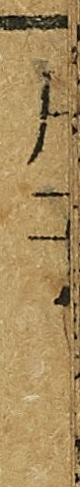尸子
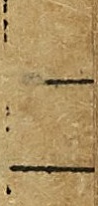一
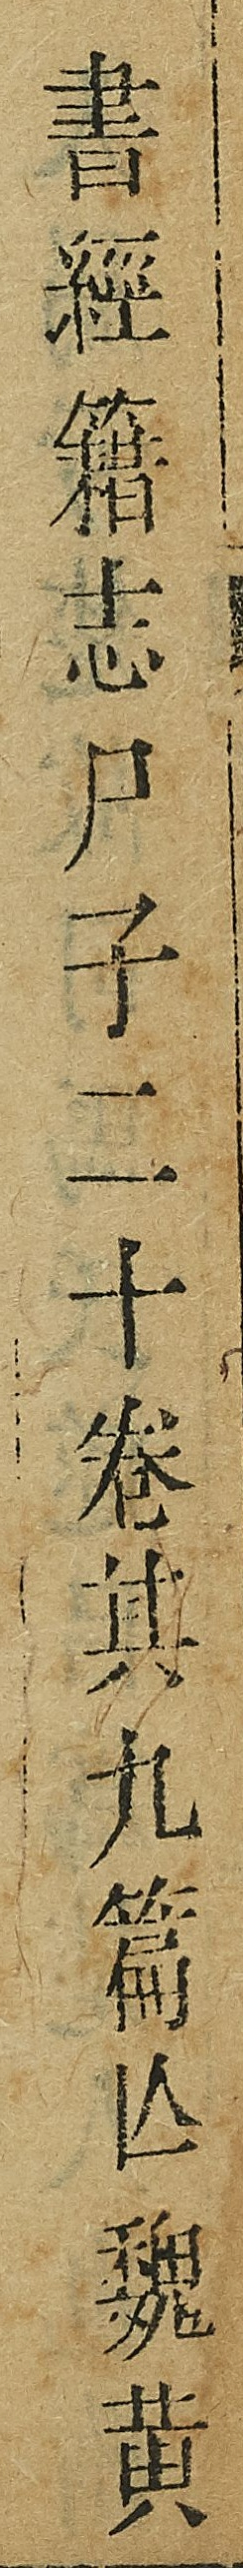書經籍志尸子二十卷其九篙丛魏黄
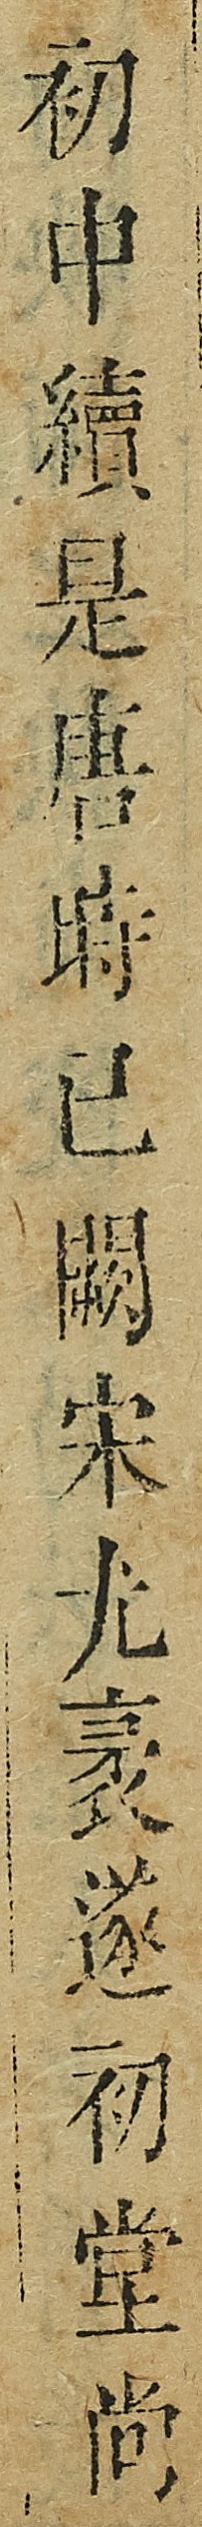初中續是唐時已闕宋尤袤遂初堂尚
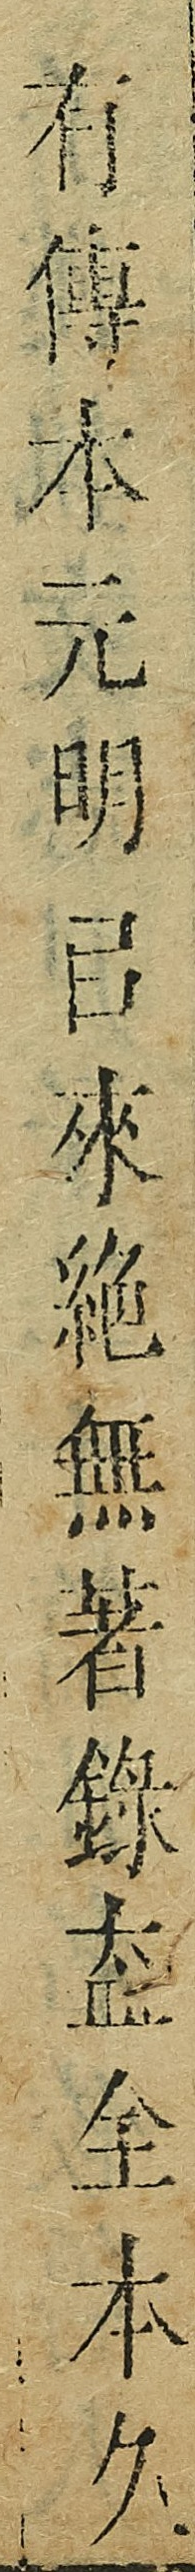有傅木元明日來絕無著錄盇全本久
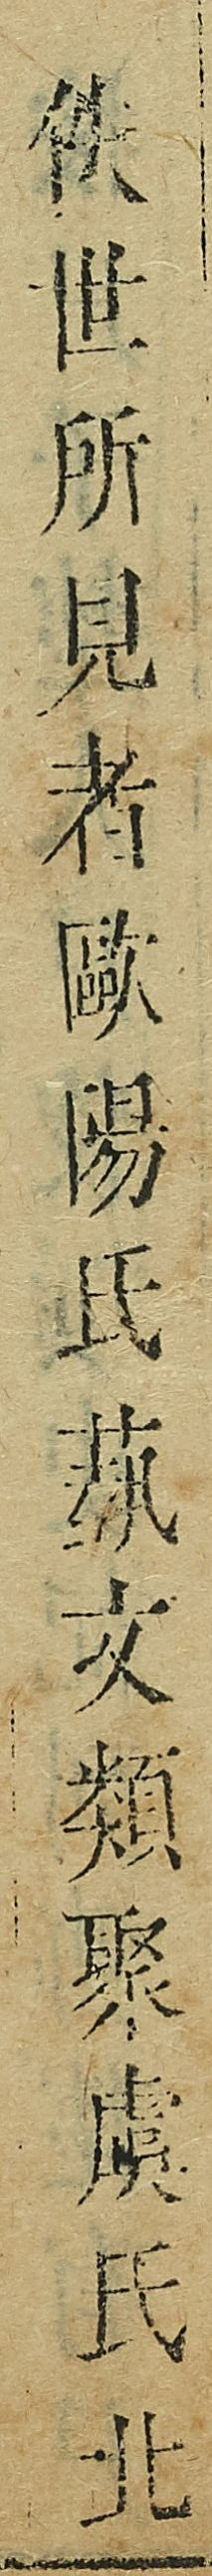佚世所見者歐陽氏蘭文頻聚虞氏北
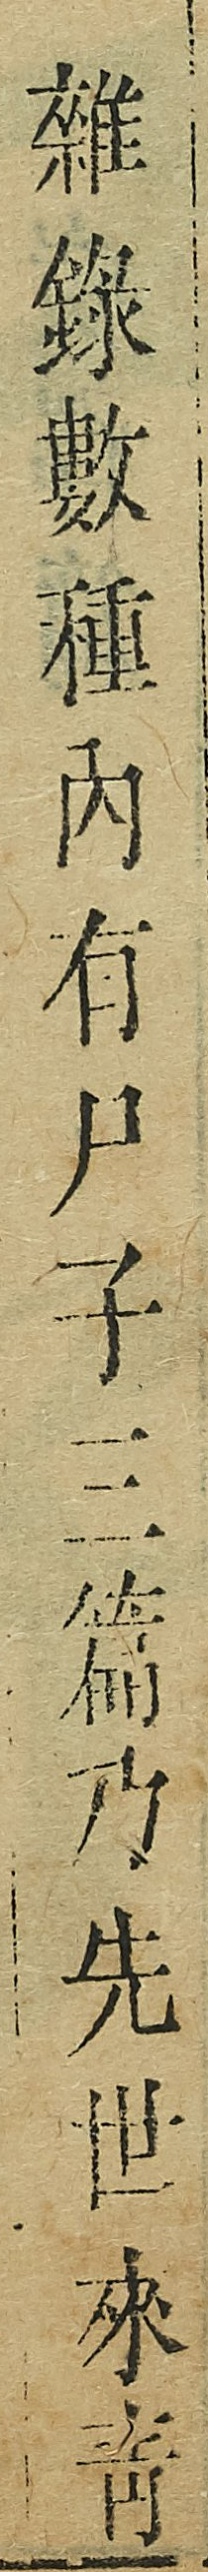雑錄數種内有尸子三篇乃先世來青
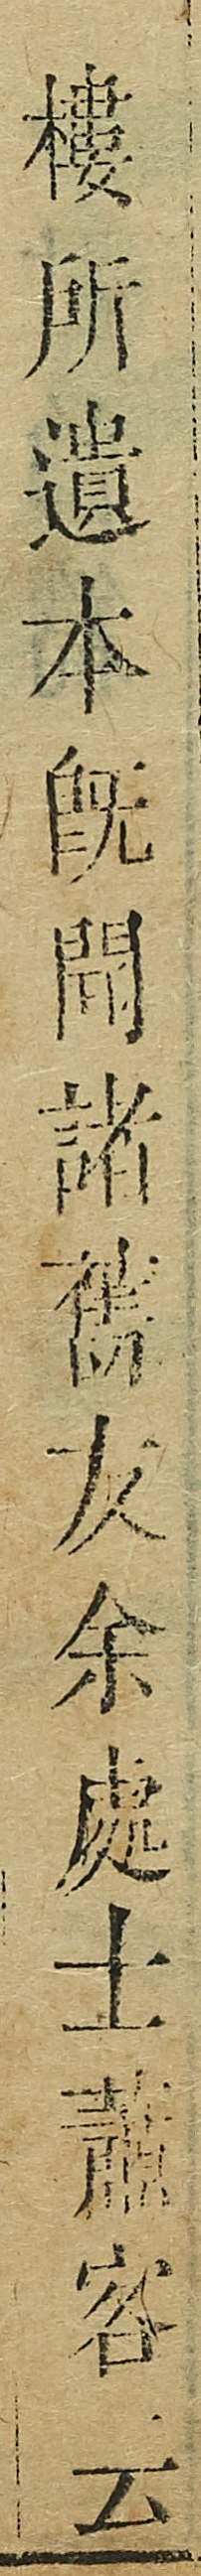樓所遺本既聞諸舊友余處士蕭客云
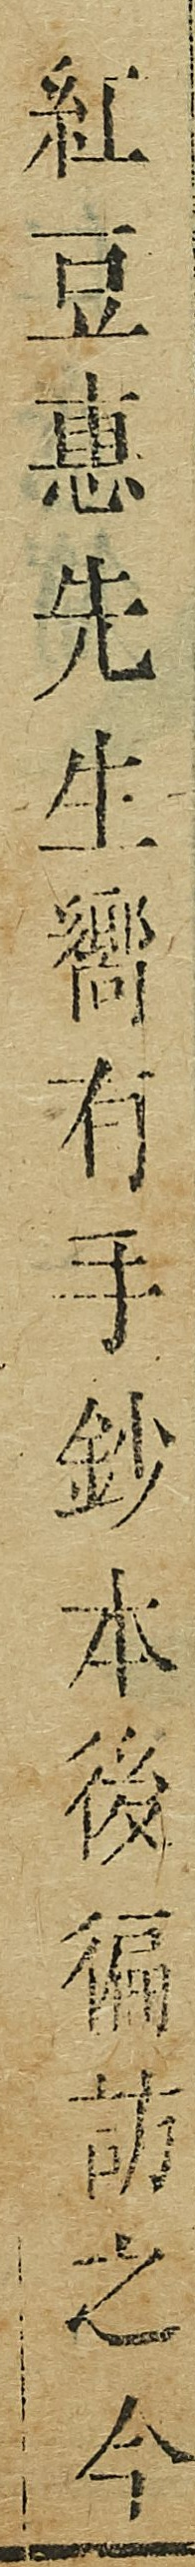紅豆惠先生嚮冇手鈔本後偏訪之今
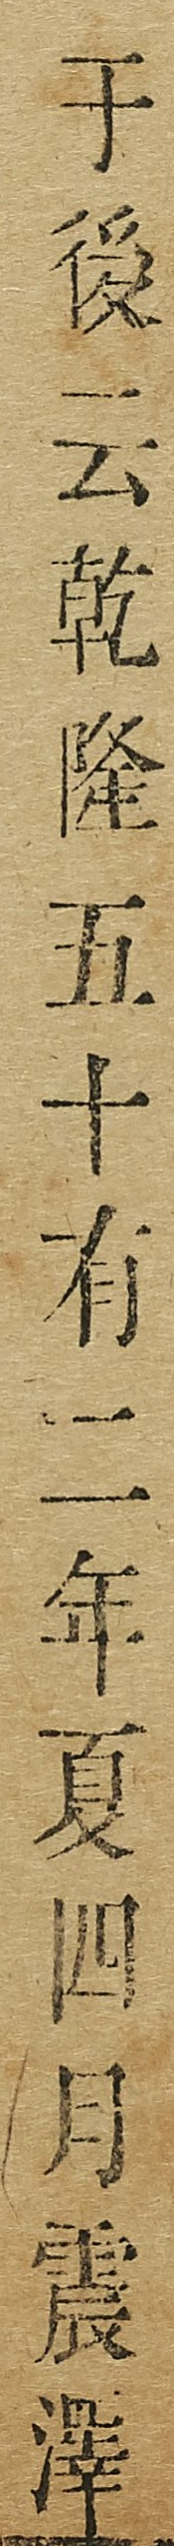于後云乾隆五十有二年夏四月震澤
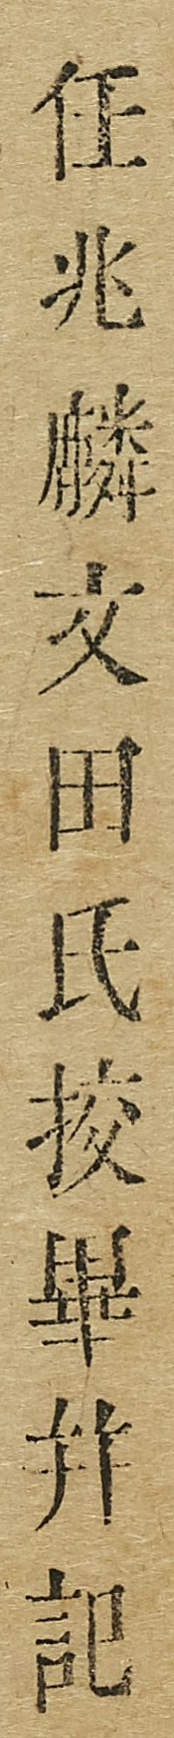任兆麟交田氏校畢併記
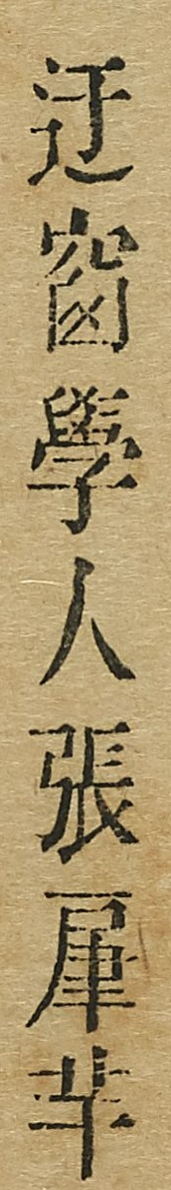迂窗學人張犀芊
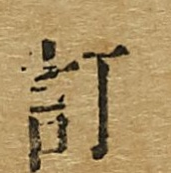訂
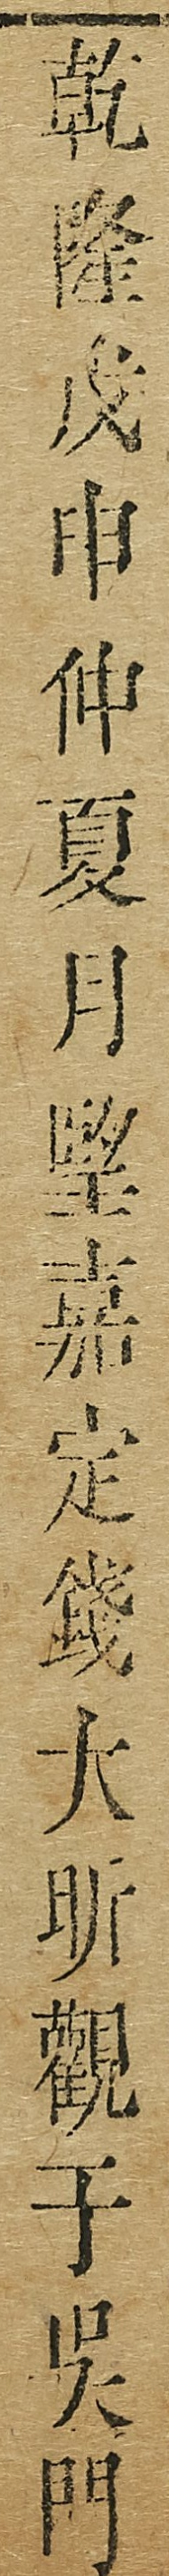乾隆戊申仲夏月堅嘉定錢大昕觀于吳門
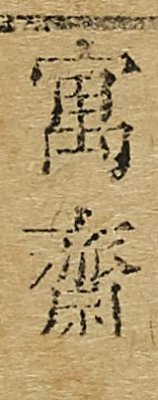寓齋
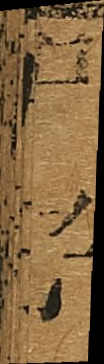尸子
